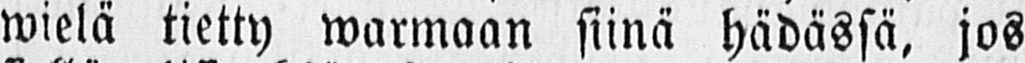wielä tietty warmaan siinä hädässä, jos
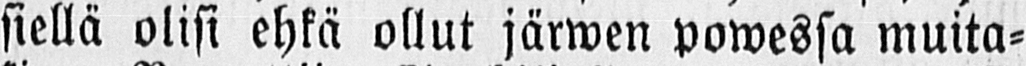siellä olisi ehkä ollut järwen powessa muita-
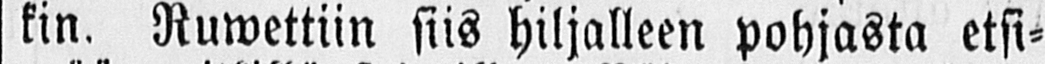kin. Ruwettiin siis hiljalleen pohjasta etsi-
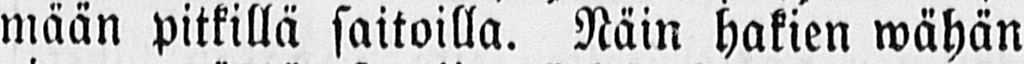mään pitkillä saitoilla. Näin hakien wähän
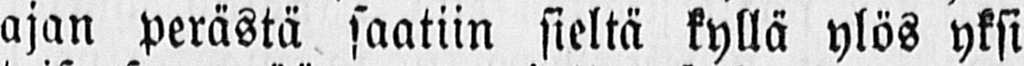ajan perästä saatiin sieltä kyllä ylös yksi
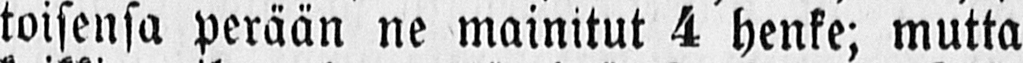toisensa perään ne mainitut 4 henke; mutta
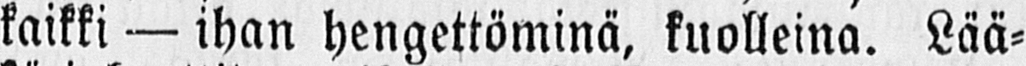kaikki — ihan hengettöminä, kuolleina. Lää-
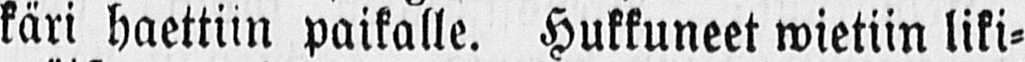käri haettiin paikalle. Hukkuneet wietiin liki-
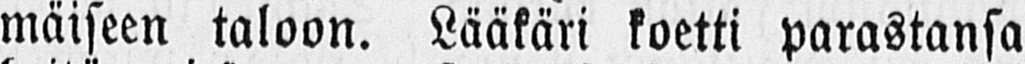mäiseen taloon. Lääkäri koetti parastansa
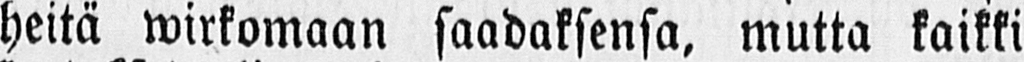heitä wirkomaan saadaksensa, mutta kaikki
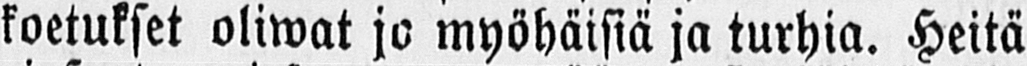koetukset oliwat jo myöhäisiä ja turhia. Heitä
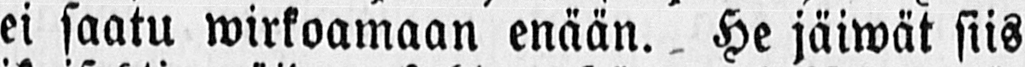ei saatu wirkoamaan enään. He jäiwät siis
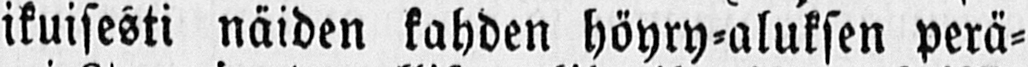ikuisesti näiden kahden höyry-aluksen perä-
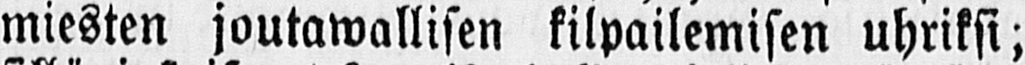miesten joutawallisen kilpailemisen uhriksi;
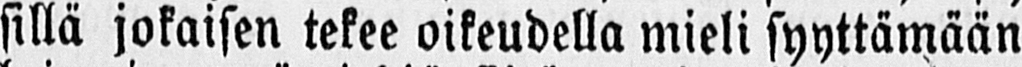sillä jokaisen tekee oikeudella mieli syyttämään
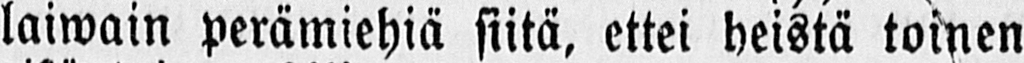laiwain perämiehiä siitä, ettei heistä toinen
